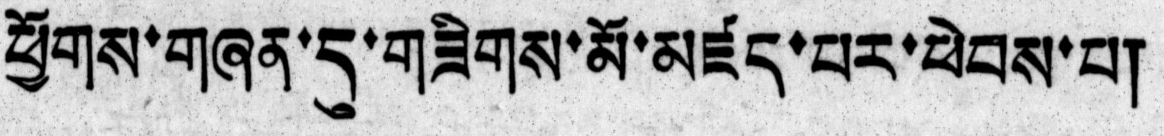ཕྱོགས་གཞན་དུ་གཟིགས་མོ་མཛད་པར་ཕེབས་པ།
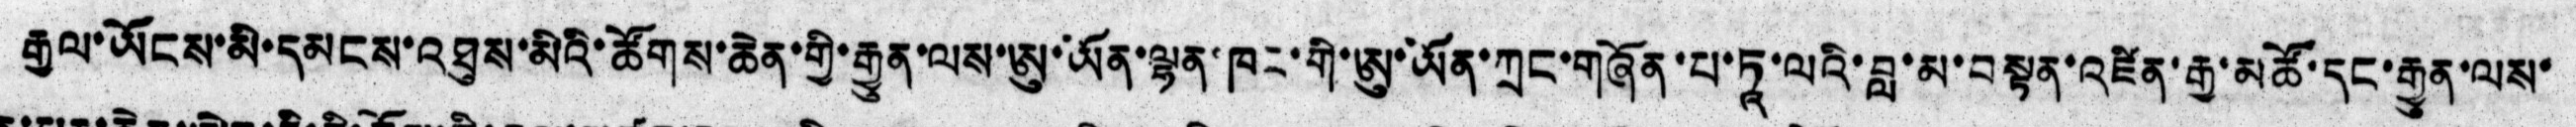རྒྱལ་ཡོངས་མི་དམངས་འཐུས་མིའི་ཚོགས་ཆེན་གྱི་རྒྱུན་ལས་ཨུ་ཡོན་ལྷན་ཁང་གི་ཨུ་ཡོན་ཀྲང་གཞོན་པ་ཏཱ་ལའི་བླ་མ་བསྟན་འཛིན་རྒྱ་མཚོ་དང་རྒྱུན་ལས་
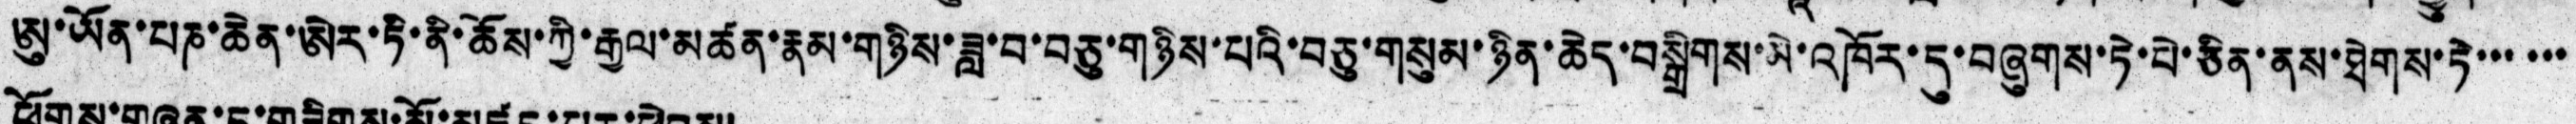ཨུ་ཡོན་པཎ་ཆེན་ཨེར་ཏི་ནི་ཆོས་ཀྱི་རྒྱལ་མཚན་རྣམ་གཉིས་ཟླ་བ་བཅུ་གཉིས་པའི་བཅུ་གསུམ་ཉིན་ཆེད་བསྒྲིགས་མེ་འཁོར་དུ་བཞུགས་ཏེ་པེ་ཅིན་ནས་ཐེགས་ཏེ་་་་་་
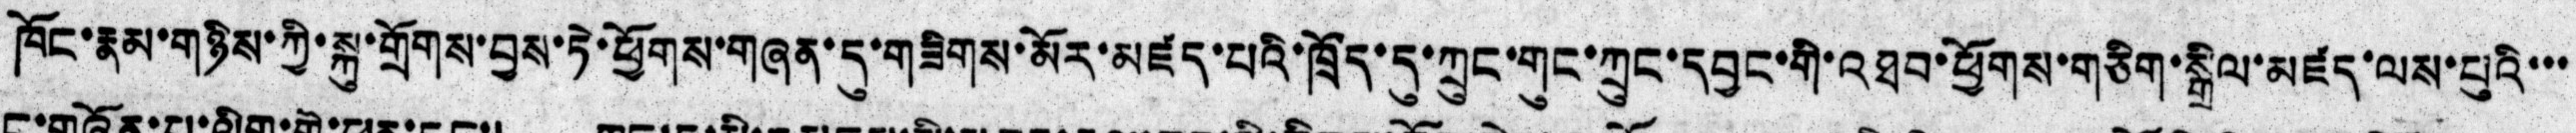ཁོང་རྣམ་གཉིས་ཀྱི་སྐུ་གྲོགས་བྱས་ཏེ་ཕྱོགས་གཞན་དུ་གཟིགས་མོར་མཛད་པའི་ཁྲོད་དུ་ཀྲུང་གུང་ཀྲུང་དབྱང་གི་འཐབ་ཕྱོགས་གཅིག་སྒྲིལ་མཛད་ལས་པུའི་་་
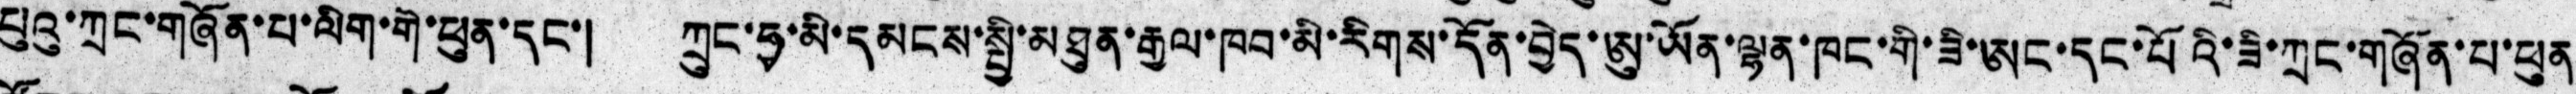པུའུ་ཀྲང་གཞོན་པ་ལིག་གེ་ཕུན་དང་། ཀྲུང་ཧྭ་མི་དམངས་སྤྱི་མཐུན་རྒྱལ་ཁབ་མི་རིགས་དོན་བྱེད་ཨུ་ཡོན་ལྷན་ཁང་གི་ཟི་ཨང་དང་པོའི་ཟི་ཀྲང་གཞོན་པ་ཕུན
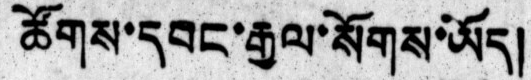ཚོགས་དབང་རྒྱལ་སོགས་ཡོད།
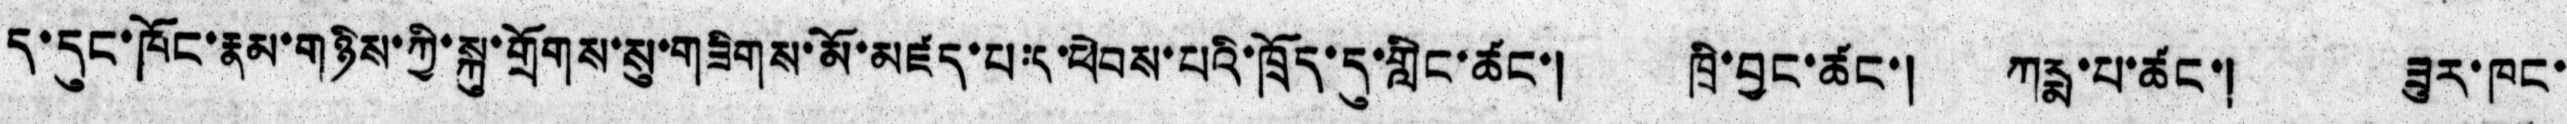དུང་ཁོང་རྣམ་གཉིས་ཀྱི་སྐུ་གྲོགས་སུ་གཟིགས་མོ་མཛད་པ་དུ་ཕེབས་པའི་ཁྲོད་དུ་གླིང་ཚང་། ཁྲི་བྱང་ཚང་། ཀརྨ་པ་ཚང་། ཟུར་ཁང་
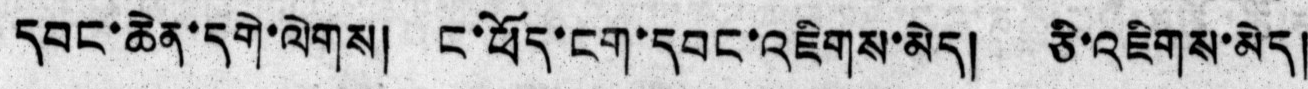དབང་ཆེན་དགེ་ལེགས། ང་ཕོད་ངག་དབང་འཇིགས་མེད། ཅི་འཇིགས་མེད།
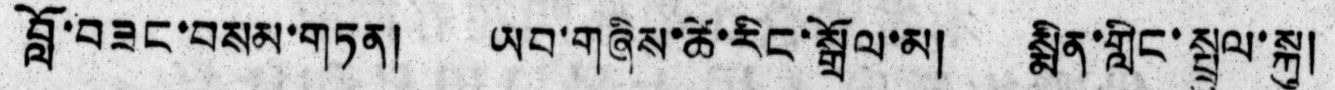བློ་བཟང་བསམ་གཏན། ཡབ་གཞིས་ཚེ་རིང་སྒྲོལ་མ། སྨིན་གླིང་སྤྲུལ་སྐུ།
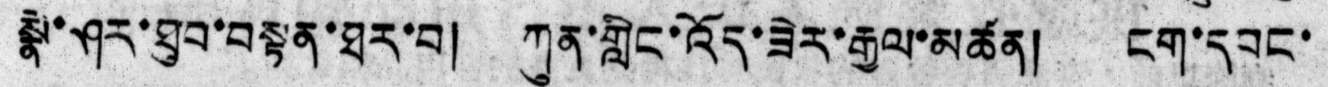སྣེ་ཤར་ཐུབ་བསྟན་ཐར་བ། ཀུན་གླིང་འོད་ཟེར་རྒྱལ་མཚན། ངག་དབང་
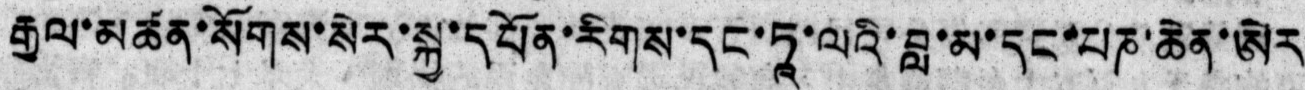རྒྱལ་མཚན་སོགས་སེར་སྐྱ་དཔོན་རིགས་དང་ཏཱ་ལའི་བླ་མ་དང་པཎ་ཆེན་ཨེར
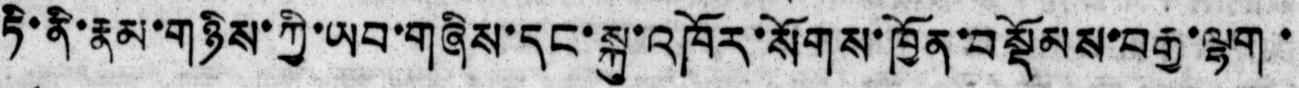ཏི་ནི་རྣམ་གཉིས་ཀྱི་ཡབ་གཞིས་དང་སྐུ་འཁོར་སོགས་ཁྱོན་བསྡོམས་བརྒྱ་ལྷག་
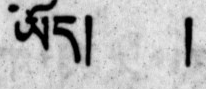ཡོད། །
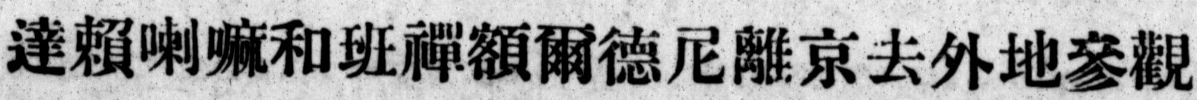達賴喇嘛和班禪額爾德尼離京去外地參觀
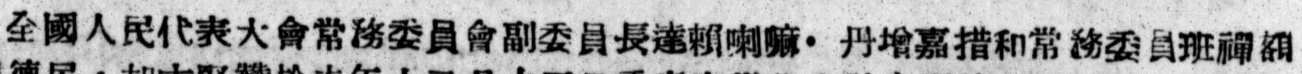全國人民代表大會常務委員會副委員長達賴喇嘛・丹增嘉措和常務委員班禪額
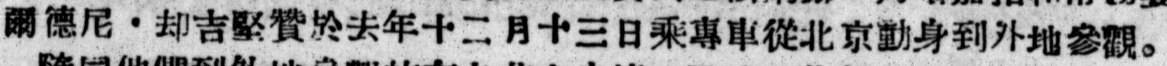爾德尼・却吉堅贊於去年十二月十三日乘專車從北京動身到外地參觀。
